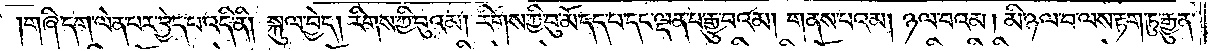།གཞི་དག་ལེན་པར་བྱེད་པ་འདི་ནི། སྐུལ་བྱེད། རིགས་ཀྱི་བུའམ། རིགས་ཀྱི་བུ་མོ་དད་པ་དང་ལྡན་པ་རྒྱུ་བའམ། གནས་པའམ། ཉལ་བའམ། མི་ཉལ་བ་ལས་རྟག་ཏུ་རྒྱུན་
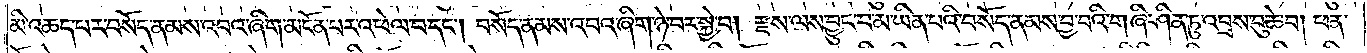མི་འཆད་པར་བསོད་ནམས་འབའ་ཞིག་མངོན་པར་འཕེལ་བ་དང༌། བསོད་ནམས་འབའ་ཞིག་ཉེ་བར་སྐྱེ་བ། རྫས་ལས་བྱུང་བ་མ་ཡིན་པའི་བསོད་ནམས་བྱ་བའི་གཞི་ཤིན་ཏུ་འབྲས་བུ་ཆེ་བ། ཕན་
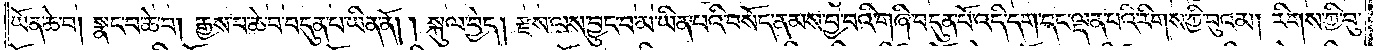ཡོན་ཆེ་བ། སྣང་བ་ཆེ་བ། རྒྱས་པ་ཆེ་བ་བདུན་པ་ཡིན་ནོ། །སྐུལ་བྱེད། རྫས་ལས་བྱུང་བ་མ་ཡིན་པའི་བསོད་ནམས་བྱ་བའི་གཞི་བདུན་པོ་འདི་དག་དང་ལྡན་པའི་རིགས་ཀྱི་བུའམ། རིགས་ཀྱི་བུ་
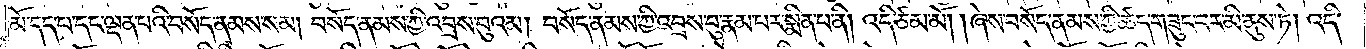མོ་དད་པ་དང་ལྡན་པའི་བསོད་ནམས་སམ། བསོད་ནམས་ཀྱི་འབྲས་བུའམ། བསོད་ནམས་ཀྱི་འབྲས་བུ་རྣམ་པར་སྨིན་པ་ནི། འདི་ཙམ་མོ། །ཞེས་བསོད་ནམས་ཀྱི་ཚད་གཟུང་བར་མི་ནུས་ཏེ། འདི་
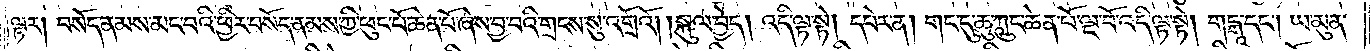ལྟར། བསོད་ནམས་མང་བའི་ཕྱིར་བསོད་ནམས་ཀྱི་ཕུང་པོ་ཆེན་པོ་ཞེས་བྱ་བའི་གྲངས་སུ་འགྲོའོ། །སྐུལ་བྱེད། འདི་ལྟ་སྟེ། དཔེར་ན། གང་དུ་ཆུ་ཀླུང་ཆེན་པོ་ལྔ་པོ་འདི་ལྟ་སྟེ། གངྒཱ་དང༌། ཡ་མུ་ན་
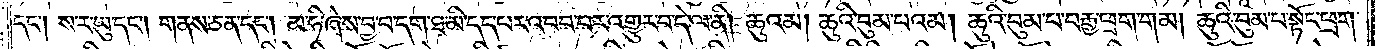དང༌། ས་ར་ཡུ་དང༌། གནས་ཅན་དང༌། མ་ཧི་ཞེས་བྱ་བ་དག་ཐ་མི་དད་པར་འབབ་པར་འགྱུར་བ་དེ་ལ་ནི། ཆུའམ། ཆུའི་བུམ་པའམ། ཆུའི་བུམ་པ་བརྒྱ་ཕྲག་གམ། ཆུའི་བུམ་པ་སྟོང་ཕྲག་
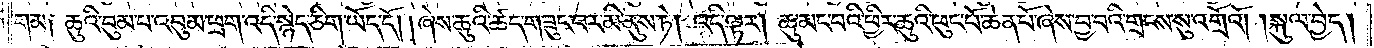གམ༑ ཆུའི་བུམ་པ་འབུམ་ཕྲག་འདི་སྙེད་ཅིག་ཡོད་དོ། ཞེས་ཆུའི་ཚད་གཟུང་བར་མི་ནུས་ཏེ། འདི་ལྟར། ཆུ་མང་བའི་ཕྱིར་ཆུའི་ཕུང་པོ་ཆེན་པོ་ཞེས་བྱ་བའི་གྲངས་སུ་འགྲོའོ། །སྐུལ་བྱེད།
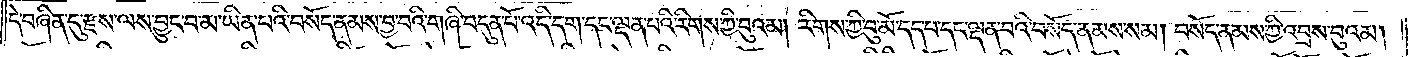དེ་བཞིན་དུ་རྫས་ལས་བྱུང་བ་མ་ཡིན་པའི་བསོད་ནམས་བྱ་བའི་གཞི་བདུན་པོ་འདི་དག་དང་ལྡན་པའི་རིགས་ཀྱི་བུའམ། རིགས་ཀྱི་བུ་མོ་དད་པ་དང་ལྡན་པའི་བསོད་ནམས་སམ། བསོད་ནམས་ཀྱི་འབྲས་བུའམ།
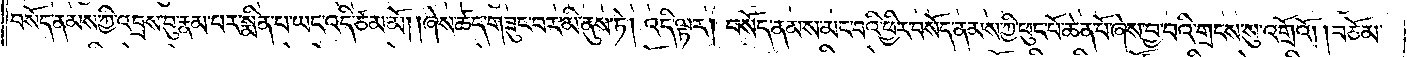བསོད་ནམས་ཀྱི་འབྲས་བུ་རྣམ་པར་སྨིན་པ་ཡང་འདི་ཙམ་མོ། །ཞེས་ཚད་གཟུང་བར་མི་ནུས་ཏེ། འདི་ལྟར། བསོད་ནམས་མང་བའི་ཕྱིར་བསོད་ནམས་ཀྱི་ཕུང་པོ་ཆེན་པོ་ཞེས་བྱ་བའི་གྲངས་སུ་འགྲོའོ། །བཅོམ་
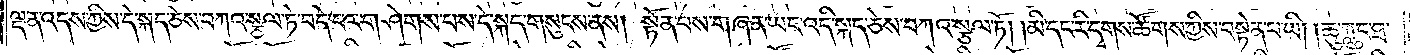ལྡན་འདས་ཀྱིས་དེ་སྐད་ཅེས་བཀའ་སྩལ་ཏེ་བདེ་བར་གཤེགས་པས་དེ་སྐད་གསུངས་ནས། སྟོན་པས་གཞན་ཡང་འདི་སྐད་ཅེས་བཀའ་སྩལ་ཏོ། །མི་དང་རི་དྭགས་ཚོགས་ཀྱིས་བསྟེན་པ་ཡི། །ཆུ་ཀླུང་ཐ་
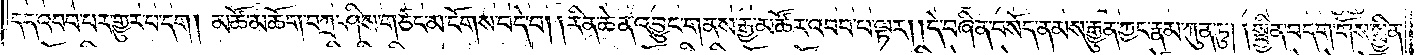དད་འབབ་པར་གྱུར་པ་དག །མཚོ་མཆོག་བཀྲ་ཤིས་གཙང་མ་ངོགས་བདེ་བ། །རིན་ཆེན་འབྱུང་གནས་རྒྱ་མཚོར་འབབ་པ་ལྟར། །དེ་བཞིན་བསོད་ནམས་རྒྱུན་ཀྱང་རྣམ་ཀུན་ཏུ། །སྦྱིན་བདག་གོས་སྦྱིན་
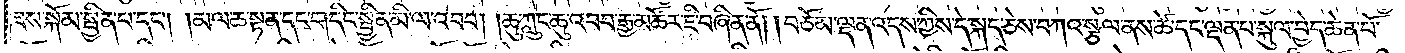ཟས་སྐོམ་སྦྱིན་པ་དང༌། །མལ་ཆ་སྟན་དང་གདིང་སྦྱིན་མི་ལ་འབབ། །ཆུ་ཀླུང་ཆུ་འབབ་རྒྱ་མཚོར་ཇི་བཞིན་ནོ། །བཅོམ་ལྡན་འདས་ཀྱིས་དེ་སྐད་ཅེས་བཀའ་སྩལ་ནས་ཚེ་དང་ལྡན་པ་སྐུལ་བྱེད་ཆེན་པོ་
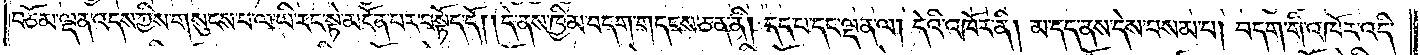བཅོམ་ལྡན་འདས་ཀྱིས་གསུངས་པ་ལ་ཡི་རང་སྟེ་མངོན་པར་བསྟོད་དོ། །དེ་ནས་ཁྱིམ་བདག་གདངས་ཅན་ནི། དད་པ་དང་ལྡན་ལ། དེའི་འཁོར་ནི། མ་དད་ནས་དེས་བསམ་པ། བདག་གི་འཁོར་འདི་
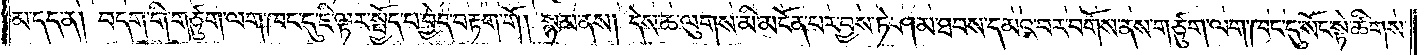མ་དད་ན། བདག་གི་གཙུག་ལག་ཁང་དུ་ཇི་ལྟར་སྤྱོད་པ་བྱེད་བརྟག་གོ །སྙམ་ནས། དེས་ཆ་ལུགས་མི་མངོན་པར་བྱས་ཏེ་ཤམ་ཐབས་དམའ་བར་བགོས་ནས་གཙུག་ལག་ཁང་དུ་སོང་སྟེ་ཚིགས་
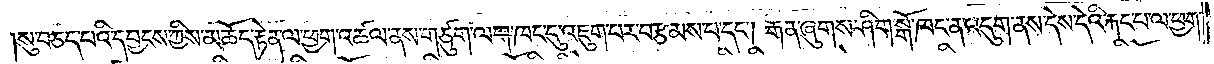སུ་བཅད་པའི་དབྱངས་ཀྱིས་མཆོད་རྟེན་ལ་ཕྱག་འཚལ་ནས་གཙུག་ལག་ཁང་དུ་འཇུག་པར་བརྩམས་པ་དང༌། རྒན་ཞུགས་ཤིག་སྒོ་ཁང་ན་འདུག་ནས་དེས་དེའི་རྐང་པ་ལ་ཕྱག་
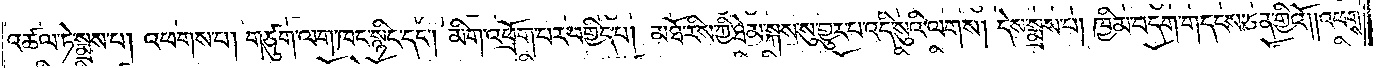འཚལ་ཏེ་སྨྲས་པ། འཕགས་པ། གཙུག་ལག་ཁང་སྙིང་དང༌། མིག་འཕྲོག་པར་བགྱིད་པ། མཐོ་རིས་ཀྱི་ཐེམ་སྐས་སུ་གྱུར་པ་འདི་སུའི་ལགས། དེས་སྨྲས་པ། ཁྱིམ་བདག་གདངས་ཅན་གྱིའོ། །འཕགས་
